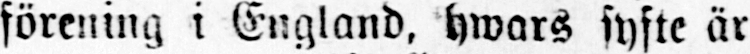förening i England, hwars syfte är
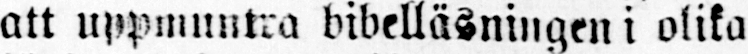att uppmuntra bibelläsningen i olika
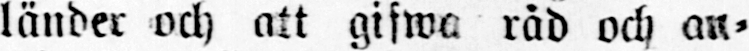länder och att gifwa råd och an-
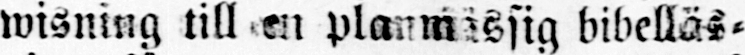wisning till en planmässig bibelläs-
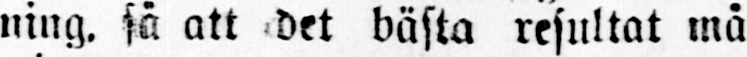ning. så att det bästa resultat må
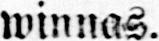winnas.
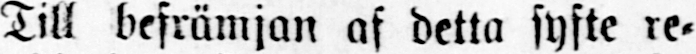Till befrämjan af detta syfte re-
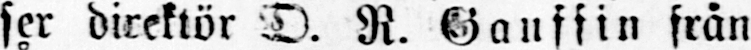ser direktör D. R. Gauffin från
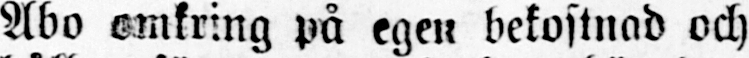Åbo omkring på egen bekostnad och
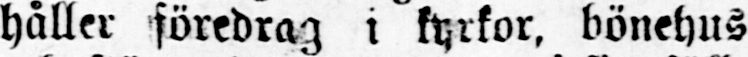håller föredrag i kyrkor, bönehus
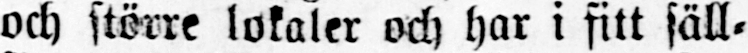och större lokaler och har i sitt säll-
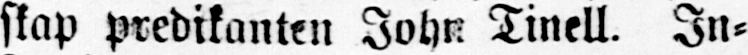skap predikanten John Tinell. In-
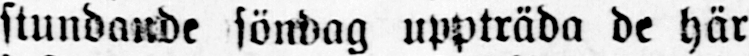stundande söndag uppträda de här
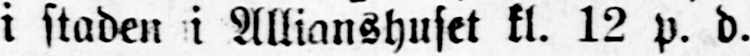i staden i Allianshuset kl. 12 p. d.
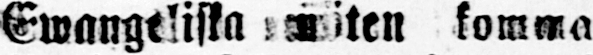Ewangeliska möten komma
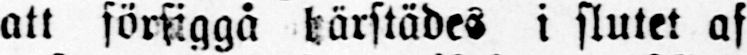att försiggå härstädes i slutet af
